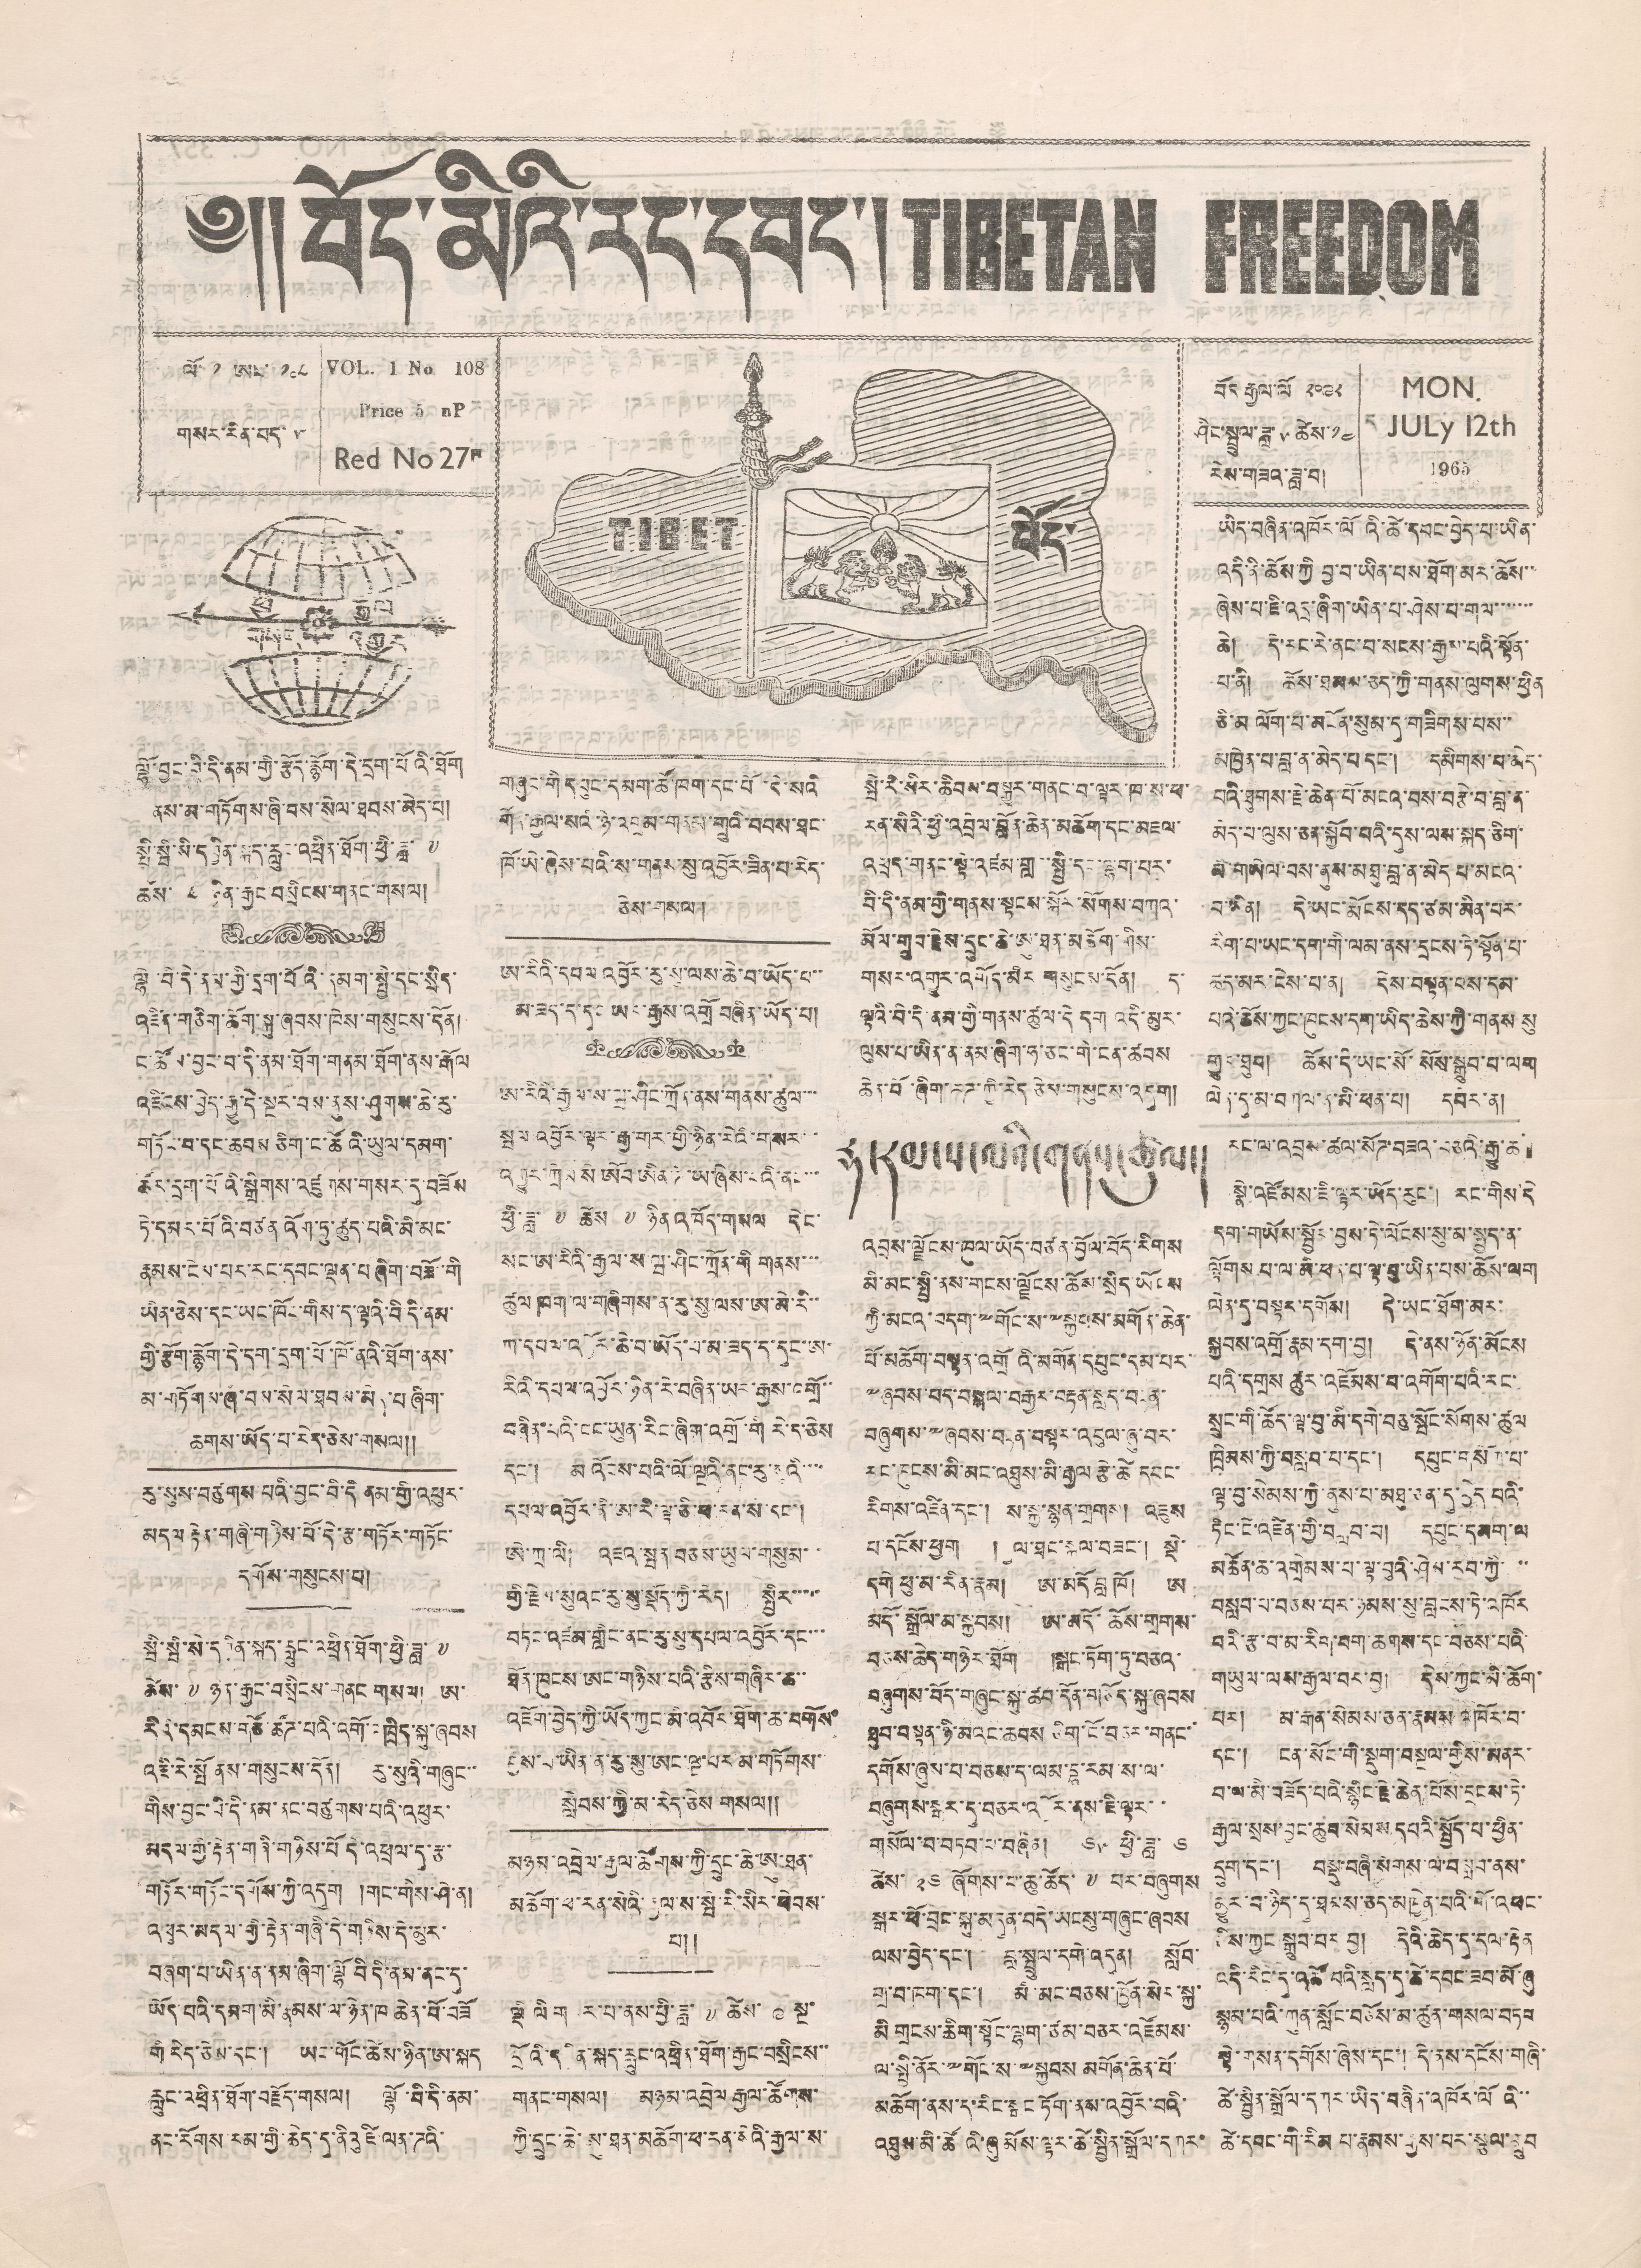༄།། བོད་མིའི་རང་དབང་། TIBETAN FREEDOM
ལོ་ ༡ ཨ་ ༡༠༨
གསར་རིན་པད་ ༥
VOL. 1 No 108
Price 5 nP
Red No 27
ཕྱི   རྒྱལ
གསར    འགྱུར
TIBET བོད་
བོད རྒྱལ་ལོ ༢༠༩༨
ཤིང་སྦྲུལ་ཟླ་ ༦ ཚེས་ ༡༤
རེས་གཟའ་ཟླ་བ།
MON.
JULy 12th
1965
ལྷོ་བྱང་བི་དི་ནམ་གྱི་རྩོད་རྙོག་དེ་དྲག་པོའི་ཐོག
ནས་མ་གཏོགས་ཞི་བས་སེལ་ཐབས་མེད་པ།
སྤི་སྦི་སི་དབྱིན་སྐད་རླུང་འཕྲིན་ཐོག་ཕྱི་ཟླ་ ༧
ཚེས་ ༨ ཉིན་རྒྱང་བསྲིངས་གནང་གསལ།
ལྷེ་བི་དེ་ནམ་གྱི་དྲག་པོའི་དམག་སྤྱི་དང་སྲིད་
འཛིན་གཅིག་ཆོག་སྐུ་ཞབས་ཁེས་གསུངས་དོན།
ང་ཚོས་བྱང་བ་དི་ནམ་ཐོག་གནམ་ཐོག་ནས་རྒོལ
འཛིངས་བྱེད་རྒྱུ་དེ་སྔར་བས་ནུས་ཤུགས་ཆེ་རུ་
གཏོང་བ་དང་ཆབས ཅིག་ང་ཚོའི་ཡུལ་དམག་
ཚོར་དྲག་པོའི་སྒྲིགས་འཛུགས་གསར་དུ་བཟོས
ཏེ་དམར་པོའི་བཙན འོག་ཏུ་ཚུད་པའི་མི་མང་
རྣམས་ངེས་པར་རང་དབང་ལྡན་པ ཞིག་བཟོ་གི
ཡིན་ཅེས་དང་ཡང་ཁོང་གིས་ད་ལྟའི་བི དི་ནམ་
གྱི་རྩོག་རྙོག་དེ་དག་དྲག་པོ་ཁོ་ནའི་ཐོག་ནས་
མ་གཏོགས་ཞི་བས་སེལ་ཐབས་མེད་པ ཞིག་
ཆགས་ཡོད་པ་རེད་ཅེས་གསལ།།
རུ་སུས་བཙུགས་པའི་བྱང་བི་དི ནམ་གྱི་འཕུར་
མདལ རྟེན་གཞི་གཉིས་པོ་དེ་རྩ་གཏོར་གཏོང་
དགོས་གསུངས་པ།
སྦི་སྦི་སེ་དབྱིན་སྐད་རླུང་འཕྲིན་ཐོག་ཕྱི་ཟླ་ ༧
ཚེས་ ༧ ཉིན་རྒྱང་བསྲིངས་གནང གསལ། ཨ་
རིའི་དམངས་གཙོ་ཚོཌ་པའི་འགོ་འཁྲིད་སྐུ་ཞབས
འཇི་རེ་སྤོ ནས་གསུངས་དོན། རུ་སུའི་གཞུང་་
གིས་བྱང་བི་དི་ནམ་ནང་བཙུགས་པའི་འཕུར་
མདལ་གྱི་རྟེན་གཞི་གཉིས་པོ དེ་འཕྲལ་དུ་རྩ་
གཏོར་གཏོང་དགོས་ཀྱི་འདུག །གང་གིས་ཤེ་ན།
འཕུར་མདལ་གྱི་རྟེན་གཞི་དེ་གཉིས་དེ་མུར་
བཞག་པ་ཡིན་ན་ནམ་ཞིག་ལྷོ བི དི་ནམ་ནང་དུ་
ཡོད་པའི་དམག་མི་རྣམས་ལ་ཉེན་ཁ ཆེན་པོ་བཟོ
གི རེད་ཅེས་དང་།   ཡང་གོང་ཚེས་ཉིན་ཨ་སྐད
རླུང་འཕྲིན་ཐོག་བརྗོད་གསལ། ལྷོ་བི་དི་ནམ་
ནང་རོགས་རམ་གྱི་ཆེད་དུ་ནིའུ་ཛི་ལན་ཌའི་
གཞུང་གི དཔུང་དམག་ཚོ་ཁག་དང་པོ་དེ་སའི
གོན་རྒྱལ་སའི་ཉེ་འབྲམ་གནམ་གྲུའི་བབས་ཐང་
ཁོ་ཡེ་ཞེས་པའི་ས་གནས་སུ་འབྱོར་ཟིན་པ་རེད་
ཅེས་གསལ།
ཨུ་རིའི་དཔལ འབྱོར་རུ་སུ་ལས་ཆེ་བ་ཡོད་པ་་
མ་ཟད་ད་དུང ཡར་རྒྱས་འགྲོ བཞིན་ཡོད་པ།
ཨ་རིའི་རྒྱལ་ས་ཝ་ཤིང་ཀྲོན་ནས་གནས་ཚུལ་་་
སྦལ་འབྱོར་ལྟར་རྒྱ་གར་གྱི་ཉིན་རེའི་གསར་ ་
འགྱུར་ཀྲེམ སེ ཨོབ་ཨིན་ཌི་ཡ་ཞེས་པའི་ནང་་་
ཕྱི་ཟླ་ ༧ ཚེས ༧ ཉིན་འཁོད་གསལ དེང་
སང་ཨ་རིའི་རྒྱལ་ས་ཝ་ཤིང་ཀྲོན་གི གནས་་་
ཚུལ ཁག་ལ་གཞིགས་ན་རུ་སུ་ལས་ཨ་མེ་རི་་
ཀ་དཔལ་འབོར་ཆེ་བ་ཡོད་པ་མ་ཟད་ད་དུང་ཨ་
རིའི་དཔལ་འབྱོར་ཉིན་རེ་བཞིན་ཡར་རྒྱས་འགྲོ་་
བཞིན་པའི་ངང་ཡུན་རིང་ཞིག་འགྲོ་གི རེ་ད་ཅེས
དང་། མ འོངས་པའི་ལོ་ལྔའི་ནང་རུ་སུའི་་་་
དཔལ་འབྱོར་ནི་ཨ་རི་ལྟ་ཅི་ཕ་རན་ས་དང་།
ཨེ་ཀྲ་ལི། འཇའ་སྤན བཅས་ཡུལ་གསུམ་་
གྱི་རྗེས་སུའང་རུ་སུ་སྡོད་ཀྱི་རེད། སྤྱིར་་་་་
བཏང་འཛམ་གླིང་ནང་རུ་སུ་དཔལ་འབྱོར་དང་་་
ཐོན་ཁུངས་ཨང་གཉིས་པའི་རྩིས་གཞིར་ཆ་་
འཇོག་བྱེད་ཀྱི་ཡོད་ཀྱང་མི་འབོར་ཐོག་ཆ་བགོས་
བྱས་པ་ཡིན་ན་རུ་སུ་ཨང་ལྔ་པར་མ་གཏོགས་
སླེབས་ཀྱི་མ་རེད་ཅེས གསལ།།
མཉམ་འབྲེལ་རྒྱལ་ཚོགས་ཀྱི་དྲུང་ཆེ་ཨུ་ཐན་
མཆོག་ཕ་རན་སེའི་རྒྱལ་ས་སྤ་རི་སིར་ཕེབས་
པ། །
ལྡི ལི གསར་པ་ནས་ཕྱི་ཟླ་ ༧ ཚེས་ ༩ སྔ་
དྲོའི་དབྱིན་སྐད་རླུང་འཕྲིན་ཐོག་རྒྱང་བསྲིངས་་
གནང་གསལ། མཉམ་འབྲེལ རྒྱལ་ཚོགས་
ཀྱི་དྲུང་ཆེ་ཨུ་ཐན་མཆོག་ཕ་རན་སེའི་རྒྱལ་ས་
སྦེ་རི་སིར་ཆིབས་བསྒྱུར་གནང་བ་ལྟར་ཁ་ས་ཕ་
རན་སིའི་ཕྱི་འབྲེལ་བློན་ཆེན་མཆོག་དང་མཇལ་
འཕྲད་གནང་སྟེ་འཛམ་གླང་སྤྱི་དང་ལྷག་པར་
བི་དི་ནམ་གྱི་གནས་སྟངས་སྐོར་སོགས་བཀའ་
མོལ་གྲུབ་རྗེས་དྲུང་ཆེ་ཨུ་ཐན་མཆོག་གིས་
གསར་འགྱུར་འགོད་མིར་གསུངས་དོན།   ད་
ལྟའི་བི་དི་ནམ་གྱི་གནས་ཚུལ་དེ་དག འདི་མུར་
ལུས་པ་ཡིན་ན་ནམ་ཞིག་ཧ་ཅང་གི་ངན་ཚབས
ཆེན་པོ་ཞིག་རཌ་ཀྱི་རེད ཅེས་གསུངས་འདུག།
རྡ་རམ་ས་ལའི་གནས་ཚུལ།
འབྲས་ལྗོངས་ཁུལ་ཡོད་བཙན་བྱོལ་བོད་རིགས
མི་མང་སྤྱི་ནས་གངས་ལྗོངས་ཆོས་སྲིད་ཡོངས
ཀྱི་མངའ་བདག་༸གོང་ས་༸སྐྱབས་མགོན་ཆེན་
པོ་མཆོག་བསྟན་འགྲོའི་མགོན་དཔུང་དམ་པར་
༸ཞབས་པད་བསྒལ་བརྒྱར་བརྟན་སླད་བརྟན་
བཞུགས་༸ཞབས་བརྟན་བསྟར་འབུལ་ཞུ་བར་
རང་ཁུངས་མི་མང་འཐུས་མི་རྒྱལ་རྩེ་ཚེ དབང་
རིགས་འཛིན་དང་། ས་སྐྱ་སྙན་གྲགས། འཇུས
པ་དངོས་ཕྱག །རྒྱལ་ཐང་སྐལ་བཟང་། སྡེ་
དགེ ཕུ་མ་རིན་རྣམ། ཨ་མདོ བླ ཁོ། ཨ
མདོ་སྒྲོལ་མ་སྐྱབས། ཨ་མདོ་ཆོས་གྲགས་
བཅས་ཆེད་གཉེར་ཐོག །སྒང་ཏོག་ཏུ་བཅའ་
བཞུགས་བོད་གཞུང་སྐུ་ཚབ་དོན་གཅོད་སྐུ་ཞབས
ཐུབ་བསྟན་ཉི་མའང་ཆབས ཅིག་ངོ་བཅར་གནང་
དགོས་ཞུས་པ་བཅས་ད་ལམ་དྷ་རམ་ས་ལ་
བཞུགས་སྒར་དུ་བཅར་འབྱོར་ནས་ཇི་ལྟར་་
གསོལ་བ་བཏབ་པ་བཞིན། ༦༥ ཕྱི་ཟླ་ ༦
ཚེས་ ༢༦ ཞོགས་པ་ཆུ་ཚོད་ ༧ པར་བཞུགས
སྒར་ཕོ་བྲང་སྐུ་མདུན་བདེ་ཡངསུ་གཞུང་ཞབས
ལས་བྱེད་དང་། བླ་སྤྲུལ་དགེ་འདུན། སློབ་
གྲ་བ་ཁག་དང་། མི་མང་བཅས་ཁྱོན་སེར་སྐྱ་
མི གྲངས་ཆིག་སྟོང་ལྷག་ཙམ་བཅར་འཛོམས་
ལ་སྤྱི་ནོར་༸གོང་ས་༸སྐྱབས མགོན་ཆེན་པོ་
མཆོག་ནས་ད་རིང་སྒང་ཏོག་ནས་འབྱོར་བའི་
འཐུས་མི་ཚོའི་ཞུ མོས་ལྟར་ཚེ་སྦྱིན་སྒྲོལ་དཀར་
ཡིད་བཞིན་འཁོར་ལོའི་ཚེ་དབང་བྱེད་པ་ཡིན་
འདི་ནི་ཆོས་ཀྱི བྱ་བ་ཡིན་པས་ཐོག་མར་ཆོས་་
ཞེས་པ་ཇི་འདྲ་ཞིག་ཡིན་པ་ཤེས་པ་གལ་་་་་་་
ཆེ། དེ་རང་རེ་ནང་བ་སངས་རྒྱས་པའི་སྟོན་
པ་ནི། ཆོས་ཐམས་ཅད་ཀྱི་གནས་ལུགས་ཕྱིན
ཅི་མ ལོག་པ་མངོན་སུམ་དུ་གཟིགས་པས་་
མཁྱེན་པ་བླ་ན་མེད་པ དང་། དམིགས་པ་མེད་
པའི་ཐུགས་རྗེ་ཆེན་པོ་མངའ་བས་བརྩེ་བ་བླ་ན་
མེད་པ་ལུས་ཅན་སྐྱོབ་པའི་དུས་ལས་སྐད་ཅིག་
མི་གཡེལ་བས་ནས་མཐུ་བླ་ན་མེད པ་མངའ་
བ་ཡིན། དེ་ཡང་རྨོངས་དད་ཙམ་མིན་པར་
རིག་པ་ཡང་དག་གི་ལམ་ནས་དྲངས་ཏེ་སྟོན་པ་
ཚད་མར་ངེས་པ་ན། དེས་བསྟན་པས་དམ་
པའི་ཆོས་ཀྱང་ཁུངས་དག་ཡིད་ཆེས་ཀྱི་གནས སུ
གྱུར་ཐུབ། ཆོས་དེ་ཡང་སོ་སོས་སྒྲུབ་པ་ལག
ལེན་དུ་མ་བཀལ་ན་མི་ཕན་པ། དཔེར་ན།
རང་ལ་འབྲས་ཚལ་སོཌ་བཟའ་བཅའི་རྒྱ་ཆ
སྣེ་འཛོམས་ཇི་ལྟར་ཡོད་རུང་། རང་གིས་དེ
དག་གཡོས་སྦྱོར་བྱས་ཏེ་ལོངས་སུ་མ་སྤྱད་ན་
ལྟོགས པ་ལ་མི་ཕན་པ་ལྟ་བུ་ཡིན་པས་ཆོས་ལག
ལེན་དུ་བསྟར་དགོས། དེ་ཡང་ཐོག་མར་
སྐྱབས་འགྲོ་རྣམ་དག་བྱ། དེ་ནས་ཉོན་མོངས
པའི་དགྲས ཚུར་འཛོམས་པ་འགོག་པའི་རང་
སྲུང་གི་ཚོད་ལྟ་བུ་མི་དགེ་བཅུ་སྤོང་སོགས་ཚུལ
ཁྲིམས་ཀྱི་བསླབ་པ་དང་། དཔུང་གསོག་པ་
ལྟ་བུ་སེམས་ཀྱི་ནུས་པ་མཐུ་ཅན་དུ་བྱེད་པའི་
ཏིང་ངེ་འཛིན་གྱི་བསླབ་པ། དཔུང་དམག་ལ
མཚོན་ཆ་འགྲེམས་པ་ལྟ་བུའི་ཤེས་རབ་ཀྱི་ ་་
བསླབ་པ་བཅས་པར་ཉམས་སུ་བླངས་ཏེ་འཁོར
བའི་རྩ་བ་མ་རིག་བག་ཆགས་དང་བཅས་པའི་
གཡུལ་ལས་རྒྱལ་བར་བྱ། དེས་ཀྱང་མི་ཆོག་
པར། མ་རྒན་སེམས་ཅན་རྣམས་འཁོར་བ་
དང་།   ངན་སོང་གི་སྡུག་བསྔལ་གྱིས་མནར་
བ་ལ་མི་བཟོད་པའི་སྙིང་རྗེ་ཆེན་པོས་དྲངས་ཏེ་
རྒྱལ་སྲས་བྱུང་ཆུབ་སེམས དཔའི་སྤྱོད་པ་ཕྱིན་
དྲུག་དང་། བསྡུ་བཞི་སོགས་ལ་བསླབ་ནས་
མྱུར་བ་ཉིད་དུ་ཐམས་ཅད་མཁྱེན་པའི་གོ་འཕང་
ཅིས་ཀྱང སྒྲུབ་པར བྱ། དེའི་ཆེད་དུ་དལ་རྟེན
འདི་རིང་དུ་འཚོ་བའི་སླད་དུ་ཚེ་དབང་ཟབ་མོ་ཞུ་
སྙམ་པའི་ཀུན་སློང་བཅོས་མ་ཚུན་གསལ་བཏབ
སྟེ་གསན་དགོས་ཞེས་དང་། དེ་ནས་དངོས་གཞི་
ཚེ་སྦྱིན་སྒྲོལ་དཀར་ཡིད་བཞིན་འཁོར་ལོའི་་
ཚེ་དབང་གི་རིམ་པ་རྣམས་རྒྱས་པར་སྩལ་གྲུབ
